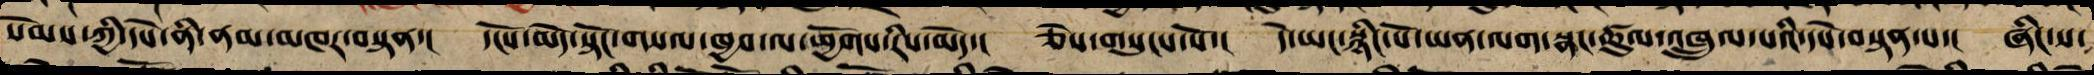སེམས་ཀྱི་དཔེ་ནི་ནམ་མཁར་བསྟན་། དངོས་མེད་སྟོང་གསལ་ཁྱབ་ལ་ཕྱོགས་རིས་མེད་། ཅེས་གསུངས་སོ་། དེ་ཡང་སྙིང་པོ་ཡན་ལག་སྣང་ཚུལ་འཁྲུལ་པའི་དཔེ་བསྟན་པ་། ཞིང་ས་
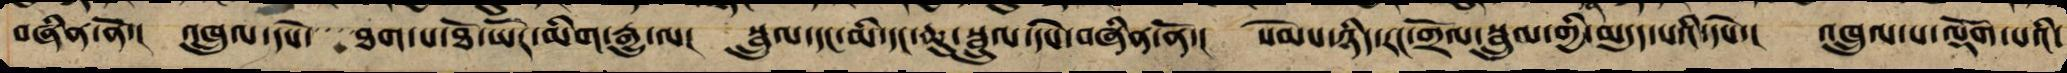བཞིན་ནོ་། འཁྲུལ་དཔེ་ཐག་པ་ཐོ་ཡོར་མིག་རྒྱུ་ལ་། སྦྲུལ་དང་མི་དང་ཆུར་འཁྲུལ་དཔེ་བཞིན་ནོ་། སེམས་ཉིད་རང་གྲོལ་སྦྲུལ་གྱི་མདུད་པའི་དཔེ་། འཁྲུལ་པ་ལྡོག་པའི་
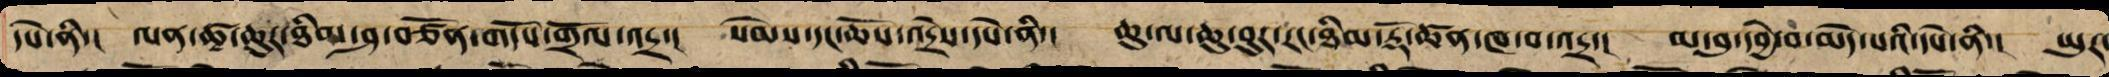དཔེ་ནི་། ལན་ཚྭ་ཆུར་ཐིམ་ཤ་བཙོན་གདོས་གྲོལ་འདྲ་། སེམས་དང་ཆོས་འདྲེས་དཔེ་ནི་། ཆུ་ལ་ཆུ་བུར་རང་ཐིམ་རྡོ་ཚན་ཁ་བ་འདྲ་། མ་བུ་དབྱེ་བ་མེད་པའི་དཔེ་ནི། ཡུར་
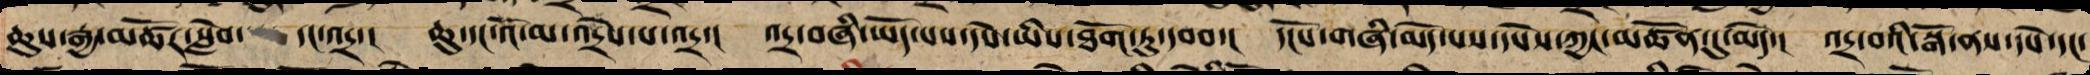ཆུས་རྒྱ་མཚོར་སླེབས་དང་འདྲ་། ཆུ་དང་འོ་མ་འདྲེས་པ་འདྲ་། འདྲ་བཞི་ཡོད་པས་དཔེ་ཡི་ཐོག་ཏུ་བབས་། དངོས་གཞི་མེད་པས་དཔེས་ཀྱང་མཚོན་དུ་མེད་། འདྲ་བའི་སྒོ་ནས་དཔེ་དང་
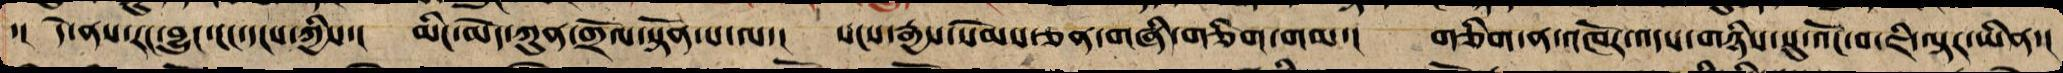་།། དེ་ནས་རང་བྱུང་ངང་དངས་ཀྱིས་། མིང་མེད་ཀུན་གྲོལ་སྟོན་པ་ལ་། སངས་རྒྱས་སེམས་ཅན་གཞི་གཅིག་གམ་། གཅིག་ན་འཁོར་འདས་གཉིས་སུ་འོང་བ་ཇི་ལྟར་ཡིན་།
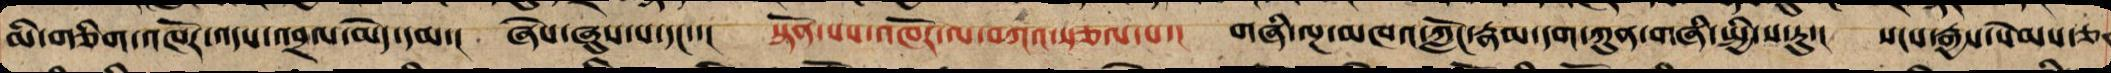མི་གཅིག་འཁོར་འདས་འབྲེལ་མེད་དམ་། ཞེས་ཞུས་པ་དང་་། སྟོན་པས་འཁོར་ལ་བཀའ་སྩལ་པ་། གཞི་ལྔ་མཁའ་ཀློང་རྣམ་དག་ཀུན་གཞི་སྤྱི་ས་རུ་། སངས་རྒྱས་སེམས་ཅན་
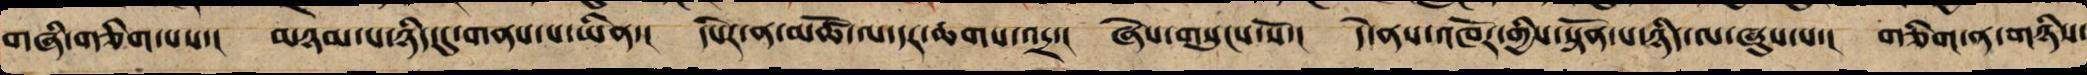གཞི་གཅིག་པས་། མཉམ་པ་ཉིད་དུ་གནས་པ་ཡིན་། དཔེར་ན་མཚོ་ལ་དར་ཆགས་འདྲ་། ཞེས་གསུངས་སོ་། དེ་ནས་འཁོར་གྱིས་སྟོན་པ་ཉིད་ལ་ཞུས་པ་། གཅིག་ན་གཉིས་
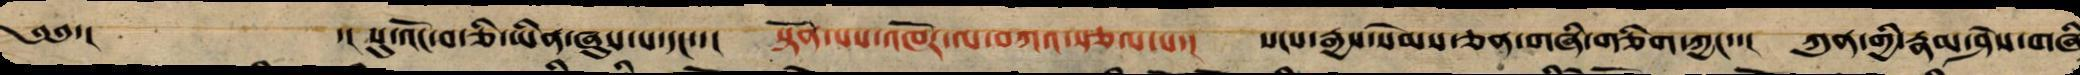༄༅་། ་། སུ་འོང་བ་ཅི་ཡིན་ཞུས་པ་དང་་། སྟོན་པས་འཁོར་ལ་བཀའ་སྩལ་པ་། སངས་རྒྱས་སེམས་ཅན་གཞི་གཅིག་ཀྱང་་། ཀུན་གཞིའི་རྣམ་ཤེས་གཞི
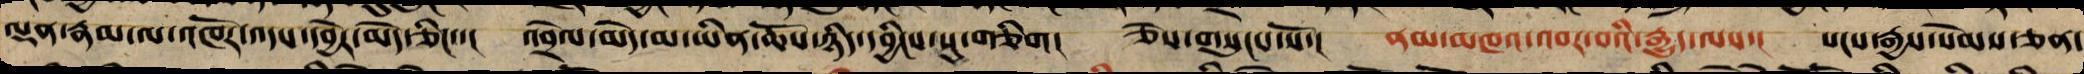ལྡན་རྣམས་ལ་འཁོར་འདས་དབྱེར་མེད་ཅིང་་། འབྲེལ་མེད་མ་ཡིན་ཆོས་ཉིད་དབྱིངས་སུ་གཅིག། ཅེས་གསུངས་སོ་། ནམ་མཁའ་འབར་བའི་རྒྱུད་ལས་། སངས་རྒྱས་སེམས་ཅན་
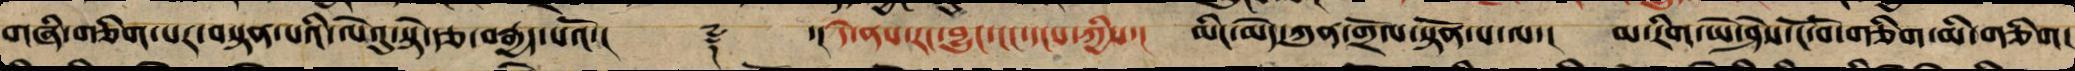གཞི་གཅིག་པར་བསྟན་པའི་ལེའུ་སྟེ་ཉེར་བརྒྱད་པའོ་།། ༈ ་།། དེ་ནས་རང་བྱུང་ངང་དངས་ཀྱིས་། མིང་མེད་ཀུན་གྲོལ་སྟོན་པ་ལ་། མ་རིག་ཡེ་ཤེས་ངོ་བོ་གཅིག་མི་གཅིག།
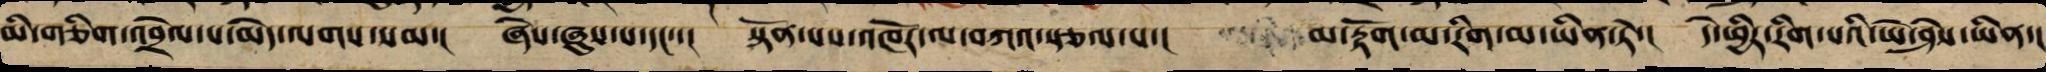མི་གཅིག་འབྲེལ་པ་མེད་ལགས་སམ་། ཞེས་ཞུས་པས་། སྟོན་པས་འཁོར་ལ་བཀའ་སྩལ་པ་། མ་རྟོགས་མ་རིག་མ་ཡིན་ཏེ་། དེ་ཕྱིར་རིག་པའི་ཡེ་ཤེས་ཡིན་།
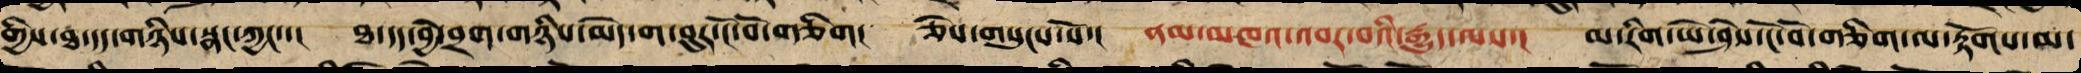གྱིས་ཐ་དད་གཉིས་སྣང་ཀྱང་་། ཐ་དད་བྱེ་བྲག་གཉིས་མེད་ག་བུར་ངོ་བོར་གཅིག། ཅེས་གསུངས་སོ་། ནམ་མཁའ་འབར་བའི་རྒྱུད་ལས་། མ་རིག་ཡེ་ཤེས་ངོ་བོ་གཅིག་ལ་རྟོགས་མ་
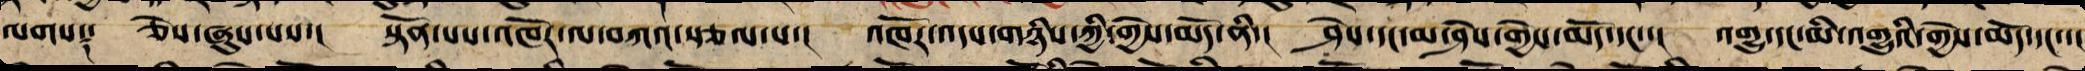ལགས༑ ཅེས་ཞུས་པས་། སྟོན་པས་འཁོར་ལ་བཀའ་སྩལ་པ་། འཁོར་འདས་གཉིས་ཀྱི་གྱེས་མདོ་ནི་། ཤེས་དང་མ་ཤེས་གྱེས་མདོ་དང་་། འགྱུ་དང་མི་འགྱུའི་གྱེས་མདོ་དང་་།
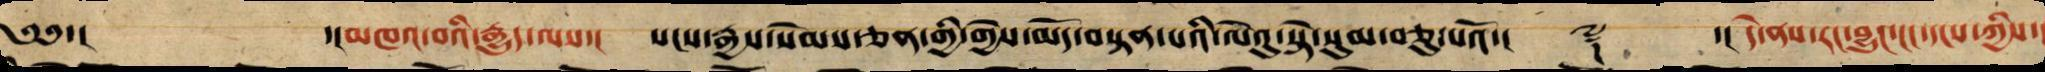༄༅་། ་།མཁའ་བའི་རྒྱུད་ལས། སངས་རྒྱས་སེམས་ཅན་གྱི་གྱེས་མདོ་བསྟན་པའི་ལེའུ་སྟེ་སུམ་ཅུ་པའོ་།། ༈ ་།། དེ་ནས་རང་བྱུང་ངང་དངས་ཀྱིས་།
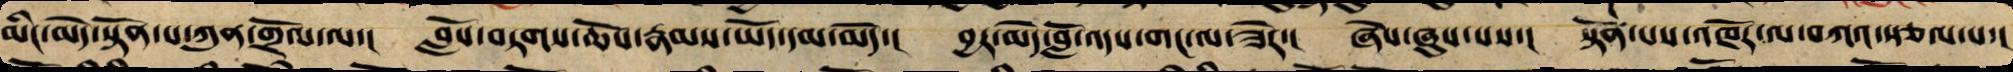མིང་མེད་སྟོན་པ་ཀུན་གྲོལ་ལ་། བློས་བཏགས་ཆོས་རྣམས་ཡོད་དམ་མེད་། བྱར་མེད་བློ་འདས་གང་ལ་ཟེར་། ཞེས་ཞུས་པས་། སྟོན་པས་འཁོར་ལ་བཀའ་སྩལ་པ་།
